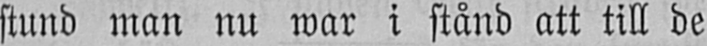stund man nu war i stånd att till de
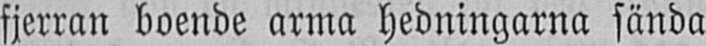fjerran boende arma hedningarna sända
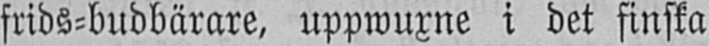frids-budbärare, uppwuxne i det finska
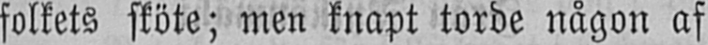folkets sköte; men knapt torde någon af
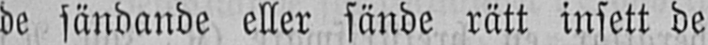de sändande eller sände rätt insett de
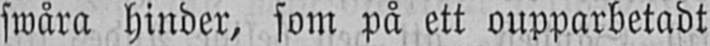swåra hinder, som på ett oupparbetadt
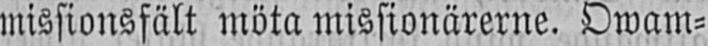missionsfält möta missionärerne. Owam-
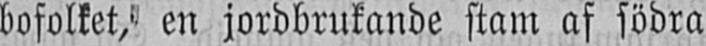bofolket, en jordbrukande stam af södra
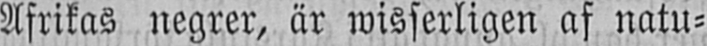Afrikas negrer, är wisserligen af natu-
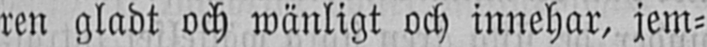ren gladt och wänligt och innehar, jem-
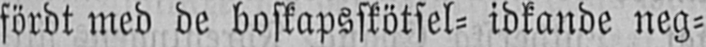fördt med de boskapsskötsel- idkande neg-
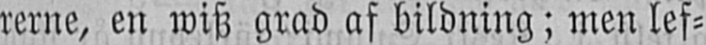rerne, en wisz grad af bildning; men lef-
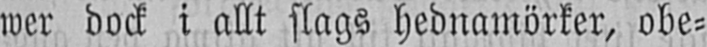wer dock i allt slags hednamörker, obe-
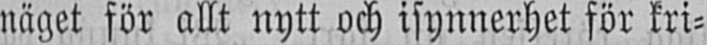näget för allt nytt och isynnerhet för kri-
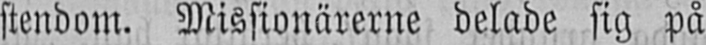stendom. Missionärerne delade sig på
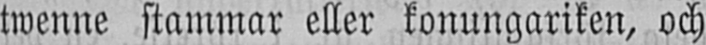twenne stammar eller konungariken, och
